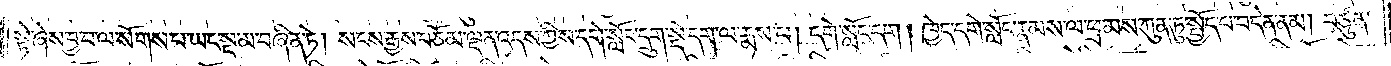སྟེ་ཞེས་བྱ་བ་ལ་སོགས་པ་ཡང་སྔ་མ་བཞིན་ཏེ། སངས་རྒྱས་བཅོམ་ལྡན་འདས་ཀྱིས་དགེ་སློང་དྲུག་སྡེ་དག་ལ་རྨས་པ། དགེ་སློང་དག། ཁྱེད་དགེ་སློང་རྣམས་ལ་ཕྲ་མས་ཀུན་ཏུ་སྤྱོད་པ་བདེན་ནམ། བཙུན་
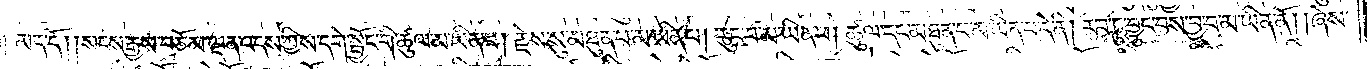པ། མད་དོ། །སངས་རྒྱས་བཅོམ་ལྡན་འདས་ཀྱིས་དགེ་སྦྱོང་གི་ཚུལ་མ་ཡིན་པ། རྗེས་སུ་མཐུན་པ་མ་ཡིན་པ། རུང་བ་མ་ཡིན་པ། ཚུལ་དང་མཐུན་པ་མ་ཡིན་པ་དེ་ནི། རབ་ཏུ་བྱུང་བས་བྱ་བ་མ་ཡིན་ནོ། །ཞེས་
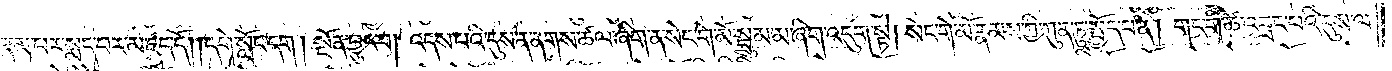རྣམ་པར་སྨད་པར་མཛད་དོ། །དགེ་སློང་དག། སྔོན་བྱུང་བ། འདས་པའི་དུས་ན་ནགས་ཚལ་ཞིག་ན་སེང་གེ་མོ་སྦྲུམ་མ་ཞིག་འདུག་སྟེ། སེང་གེ་མོ་རྣམས་ཀྱི་ཀུན་ཏུ་སྤྱོད་པ་ནི། གང་གི་ཚེ་འབྲང་པའི་དུས་ལ་
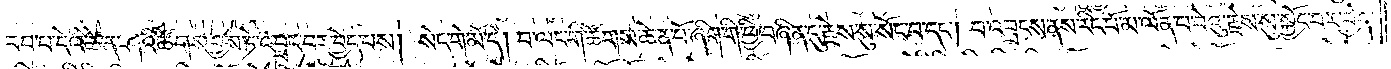བབ་པ་དེའི་ཚེ་ན་ཤའི་ཚོགས་བྱས་ཏེ་འབྲང་བར་བྱེད་པས། སེང་གེ་མོ་དེ། བ་ལང་གི་ཚོགས་ཆེན་པོ་ཞིག་གི་ཕྱི་བཞིན་དུ་རྗེས་སུ་སོང་བ་དང༌། བ་འབྲངས་ནས་རིང་པོ་མ་ལོན་པ་བེའུ་རྗེས་སུ་སྐྱོང་བར་བྱེད་
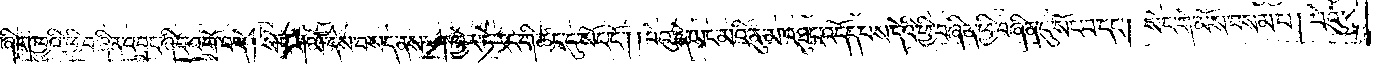པ་ཞིག་ཁྱུའི་ཕྱི་བཞིན་འབྲང་ཞིང་འགྲོ་བ་དེ། སེང་གེ་མོ་དེས་བསད་ནས་ཤ་ཁྱེར་ཏེ་རང་གི་ཚང་དུ་སོང་ངོ༌། །བེའུ་དེ་ཡང་མའི་ནུ་མ་འཐུང་འདོད་པས་དེའི་ཕྱི་བཞིན་ཕྱི་བཞིན་དུ་སོང་བ་དང༌། སེང་གེ་མོས་བསམ་པ། བེའུ་
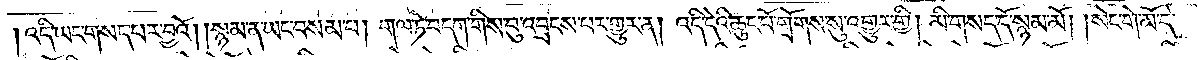འདི་ཡང་གསད་པར་བྱའོ། །སྙམ་ན་ཡང་བསམ་པ། གལ་ཏེ་བདག་གིས་བུ་འབྲངས་པར་གྱུར་ན། འདི་དེའི་ཆུང་པོ་གྲོགས་སུ་འགྱུར་གྱི། མི་གསད་དོ་སྙམ་མོ། །སེང་གེ་མོ་དེ་
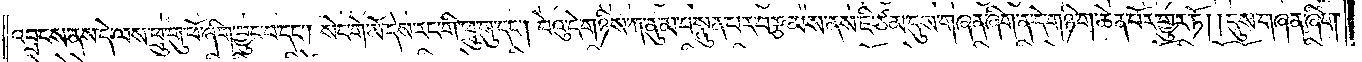འབྲངས་ནས་དེ་ལས་ཕྲུ་གུ་ཕོ་ཞིག་བྱུང་བ་དང༌། སེང་གེ་མོ་དེས་རང་གི་ཕྲུ་གུ་དང༌། བེའུ་དེ་གཉིས་ཀ་ནུ་མ་བསྣུན་པར་བརྩམས་ནས་ཇི་ཙམ་དུས་གཞན་ཞིག་ན་དེ་གཉི་ག་ཆེན་པོར་གྱུར་ཏོ། །དུས་གཞན་ཞིག་
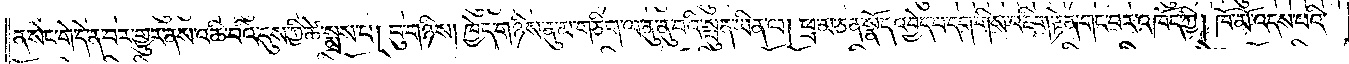ན་སེང་གེ་དེ་ན་བར་གྱུར་ནས་འཆི་བའི་དུས་ཀྱི་ཚེ་སྨྲས་པ། བུ་གཉིས། ཁྱེད་གཉིས་ནུ་མ་གཅིག་ལ་ནུ་ནུ་བའི་སྤུན་ཡིན་ལ། ཕྲ་མ་ཅན་སྣོད་འབྱེད་པ་དག་གིས་འཇིག་རྟེན་གང་བར་འཁོད་ཀྱི། ཁོ་མོ་འདས་པའི་
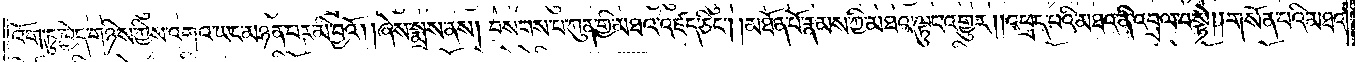འོག་ཏུ་ཁྱེད་གཉིས་ཀྱིས་འགའ་ཡང་མཉན་པར་མི་བྱའོ། །ཞེས་སྨྲས་ནས། བསགས་པ་ཀུན་གྱི་མཐའ་འཛད་ཅིང༌། མཐོན་པོ་རྣམས་ཀྱི་མཐའ་ལྟུང་འགྱུར། །འཕྲད་པའི་མཐའ་ནི་འབྲལ་བ་སྟེ། །གསོན་པའི་མཐའ་
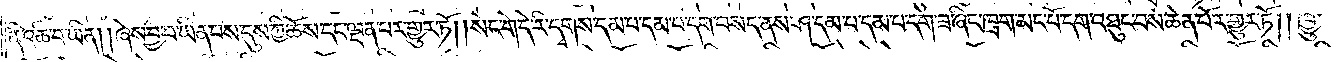ནི་འཆི་བ་ཡིན། །ཞེས་བྱ་བ་ཡིན་པས་དུས་ཀྱི་ཆོས་དང་ལྡན་པར་གྱུར་ཏོ། །སེང་གེ་དེ་རི་དྭགས་དམ་པ་དམ་པ་དག་བསད་ནས་ཤ་དམ་པ་དམ་པ་དག་ཟ་ཞིང་ཁྲག་མང་པོ་དག་འཐུང་བས་ཆེན་པོར་གྱུར་ཏོ། །ཁྱུ་
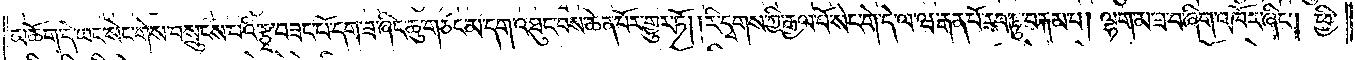མཆོག་དེ་ཡང་སེང་གེས་བསྲུངས་པའི་རྩྭ་བཟང་པོ་དག་ཟ་ཞིང་ཆུ་གཙང་མ་དག་འཐུང་བས་ཆེན་པོར་གྱུར་ཏོ། །རི་དྭགས་ཀྱི་རྒྱལ་པོ་སེང་གེ་དེ་ལ་ཝ་རྒན་པོ་རབ་ཏུ་བརྐམ་པ། ལྷག་མ་ཟ་བ་ཞིག་འཁོར་ཞིང༌། ཕྱི་
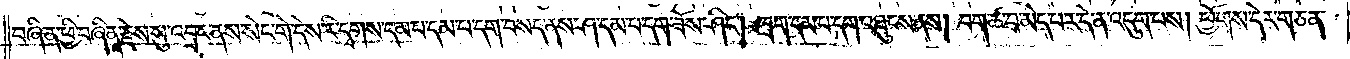བཞིན་ཕྱི་བཞིན་རྗེས་སུ་འབྲང་ནས་སེང་གེ་དེས་རི་དྭགས་དམ་པ་དམ་པ་དག་བསད་ནས་ཤ་དམ་པ་དག་ཟོས་ཤིང༌། ཁྲག་དམ་པ་དག་འཐུངས་ནས། བག་ཚ་བ་མེད་པར་དེ་ན་འདུག་པས། ཕྱོགས་དེར་གཅན་
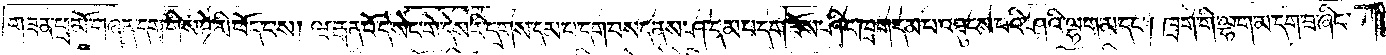གཟན་ཕྲ་མོ་གཞན་དག་གིས་ཉེ་མི་ཕོད་པས། ཝ་རྒན་པོ་དེ་སེང་གེ་དེས་རི་དྭགས་དམ་པ་དག་བསད་ནས་ཤ་དམ་པ་དག་ཟོས་ཤིང་ཁྲག་དམ་པ་འཐུངས་པའི་ཤའི་ལྷག་མ་དང༌། ཁྲག་གི་ལྷག་མ་དག་ཟ་ཞིང་
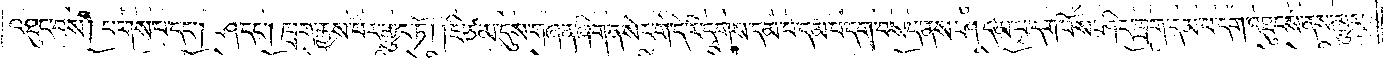འཐུང་བས། པགས་པ་དང༌། ཤ་དང༌། ཁྲག་རྒྱས་པར་གྱུར་ཏོ། །ཇི་ཙམ་དུས་གཞན་ཞིག་ན་སེང་གེ་དེ་རི་དྭགས་དམ་པ་དམ་པ་དག་བསད་ནས་ཤ་དམ་པ་དག་ཟོས་ཤིང་ཁྲག་དམ་པ་དག་འཐུངས་ནས་མྱུར་
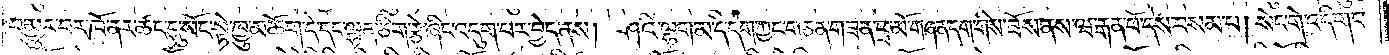བ་མྱུར་བར་ཁོ་ནར་ཚང་དུ་སོང་སྟེ་ཁྱུ་མཆོག་དེ་དང་ལྷན་ཅིག་རྩེ་ཞིང་འདུག་པར་བྱེད་ནས། ཤའི་ལྷག་མ་དེ་དག་ཀྱང་གཅན་གཟན་ཕྲ་མོ་གཞན་དག་གིས་ཟོས་ནས་ཝ་རྒན་པོ་དེས་བསམ་པ། སེང་གེ་འདི་གང་
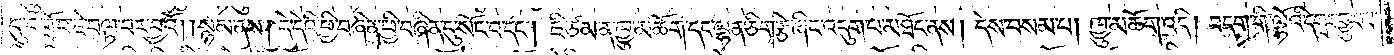དུ་འགྲོ་བ་ཇེ་བལྟ་བར་བྱའོ། །སྙམ་ནས། དེ་དེའི་ཕྱི་བཞིན་ཕྱི་བཞིན་དུ་སོང་བ་དང༌། ཇི་ཙམ་ན་ཁྱུ་མཆོག་དང་ལྷན་ཅིག་རྩེ་ཞིང་འདུག་པ་མཐོང་ནས། དེས་བསམ་པ། ཁྱུ་མཆོག་འདི། བདག་གི་ལྟོའི་དགྲར་གྱུར་པ་
